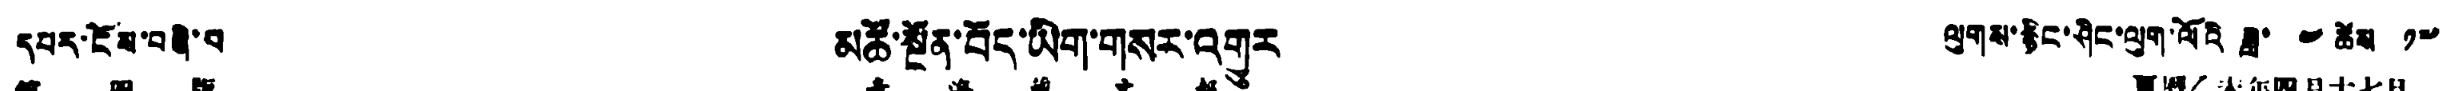དཔར་ངོས་བཞི་པ མཚོ་སྔོན་བོད་ཡིག་གསར་འགྱུར ལུགས་རྙིང་ཤིང་ལུག་ལོའི ཟླ་ ༤ ཚེས ༡༧
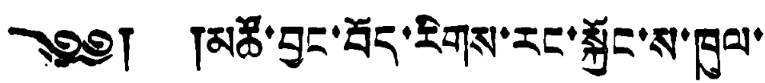༄༅། །མཚོ་བྱང་བོད་རིགས་རང་སྐྱོང་ས་ཁུལ་
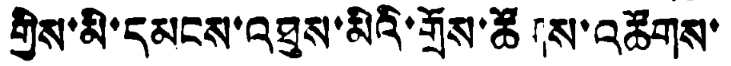གིས་མི་དམངས་འཐུས་མིའི་གྲོས་ཚོགས་འཚོགས་
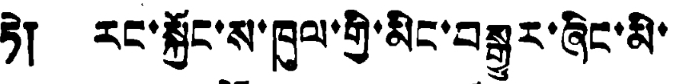ཏེ། རང་སྐྱོང་ས་ཁུལ་གྱི་མིང་བསྒྱུར་ཞིང་མི་
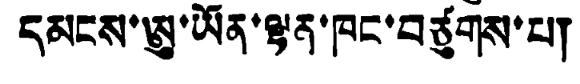དམངས་ཨུ་ཡོན་ལྷན་ཁང་བཙུགས་པ།
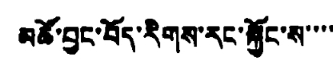མཚོ་བྱང་བོད་རིགས་རང་སྐྱོང་ས་་་་
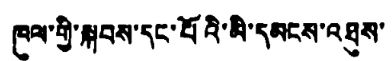ཁུལ་གྱི་སྐབས་དང་པོའི་མི་དམངས་འཐུས་་
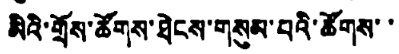མིའི་གྲོས་ཚོགས་ཐེངས་གསུམ་པའི་ཚོགས་་
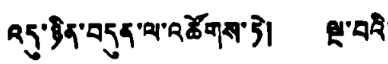འདུ་ཉིན་བདུན་ལ་འཚོགས་ཏེ། ལྔ་བའི་
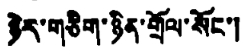ཉེར་གཅིག་ཉིན་གྲོལ་སོང་།
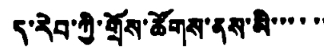ད་རེབ་ཀྱི་གྲོས་ཚོགས་ནས་མི་་་་་་
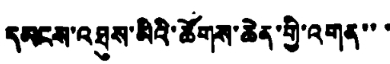དམངས་འཐུས་མིའི་ཚོགས་ཆེན་གྱི་འགན་་་
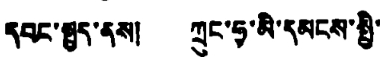དབང་སྤྱད་ནས། ཀྲུང་ཧྭ་མི་དམངས་སྤྱི་་
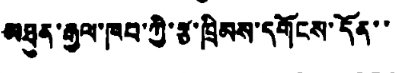མཐུན་རྒྱལ་ཁབ་ཀྱི་རྩ་ཁྲིམས་དགོངས་དོན་་
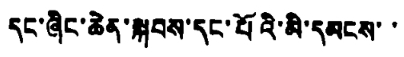དང་ཞིང་ཆེན་སྐབས་དང་པོའི་མི་དམངས་་
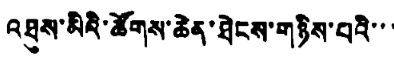འཐུས་མིའི་ཚོགས་ཆེན་ཐེངས་གཉིས་པའི་་་
